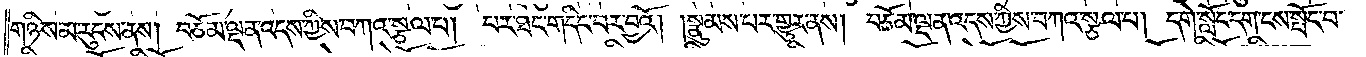གཉིས་མ་རུངས་ནས། བཅོམ་ལྡན་འདས་ཀྱིས་བཀའ་སྩལ་པ། པར་ཐང་གདིང་བར་བྱའོ། །སྣུམས་པར་གྱུར་ནས། བཅོམ་ལྡན་འདས་ཀྱིས་བཀའ་སྩལ་པ། དགེ་སློང་དག་ངས་སྤོང་བ་
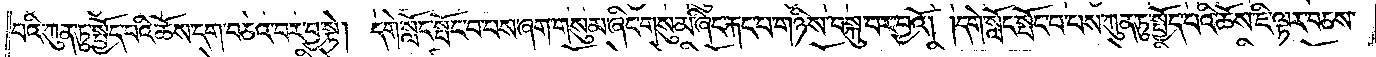པའི་ཀུན་ཏུ་སྤྱོད་པའི་ཆོས་དག་བཅའ་བར་བྱ་སྟེ། དགེ་སློང་སྤོང་བ་པས་ཞག་གསུམ་ཞིང་གསུམ་ཞིང་རྐང་པ་གཉིས་བསྐུ་བར་བྱའོ། །དགེ་སློང་སྤོང་བ་པས་ཀུན་ཏུ་སྤྱོད་པའི་ཆོས་ཇི་ལྟར་བཅས་
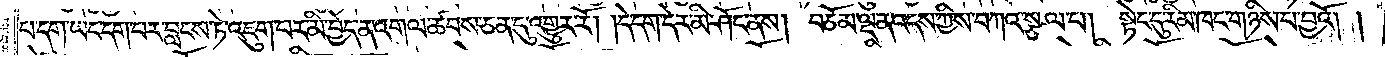པ་དག་ཡང་དག་པར་བླངས་ཏེ་འཇུག་པར་མི་བྱེད་ན་འགལ་ཚབས་ཅན་དུ་འགྱུར་རོ། །དེ་དག་དེར་མི་ཤོང་ནས། བཅོམ་ལྡན་འདས་ཀྱིས་བཀའ་སྩལ་པ། སྟེང་དུ་རིམ་ཁང་གཉིས་པ་བྱའོ༎
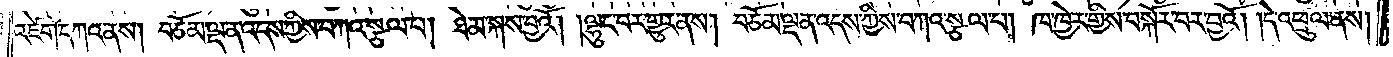འཇེག་དགའ་ནས། བཅོམ་ལྡན་འདས་ཀྱིས་བཀའ་སྩལ་པ། ཐེམ་སྐས་བྱའོ། །ལྷུང་བར་གྱུར་ནས། བཅོམ་ལྡན་འདས་ཀྱིས་བཀའ་སྩལ་པ། ཁ་ཁྱེར་གྱིས་བསྐོར་བར་བྱའོ། །དེ་འཕྲུལ་ནས།
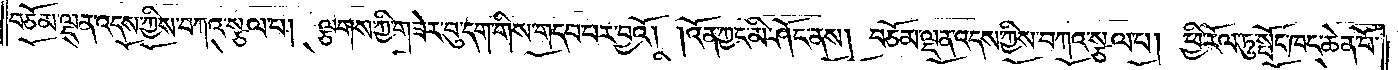བཅོམ་ལྡན་འདས་ཀྱིས་བཀའ་སྩལ་པ། ལྕགས་ཀྱི་གཟེར་བུ་དག་གིས་གདབ་པར་བྱའོ། །འོན་ཀྱང་མི་ཤོང་ནས། བཅོམ་ལྡན་འདས་ཀྱིས་བཀའ་སྩལ་པ། ཕྱི་རོལ་ཏུ་སྤོང་ཁང་ཆེན་པོ་
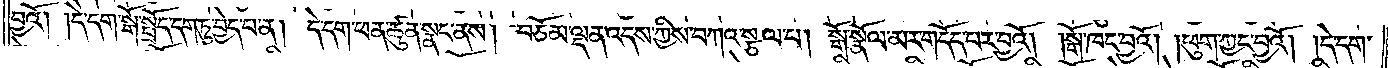བྱའོ། །དེ་དག་སྒོ་སྤྲོད་དག་ཏུ་བྱེད་པ་ན། དེ་དག་ཕན་ཚུན་སྣང་ནས། བཅོམ་ལྡན་འདས་ཀྱིས་བཀའ་སྩལ་པ། སྒོ་སྣོལ་མར་གདོད་པར་བྱའོ། །སྒོ་ཁང་བྱའོ། །ཕུག་ཀྱང་བྱའོ། །དེ་དག་
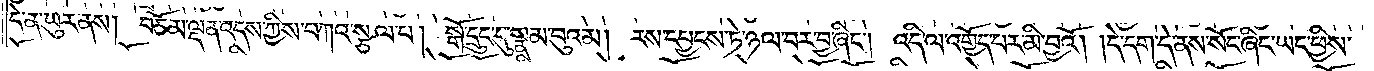དེ་ན་ཡུར་ནས། བཅོམ་ལྡན་འདས་ཀྱིས་བཀའ་སྩལ་པ། སྒོ་དྲུང་དུ་སྣམ་བུའམ། རས་དཔྱངས་ཏེ་ཉལ་བར་བྱ་ཞིང༌། འདི་ལ་འགྱོད་པར་མི་བྱའོ། །དེ་དག་དེ་ནས་སོང་ཞིང་ཡང་ཕྱིས་
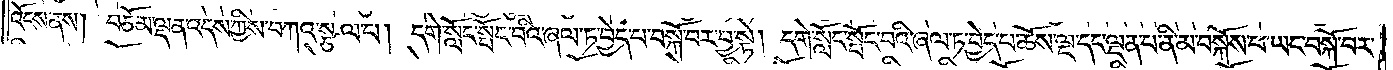འོངས་ནས། བཅོམ་ལྡན་འདས་ཀྱིས་བཀའ་སྩལ་པ། དགེ་སློང་སྤོང་བའི་ཞལ་ཏ་བྱེད་པ་བསྐོ་བར་བྱ་སྟེ། དགེ་སློང་སྤོང་བའི་ཞལ་ཏ་བྱེད་པ་ཆོས་ལྔ་དང་ལྡན་པ་ནི་མ་བསྐོས་པ་ཡང་བསྐོ་བར་
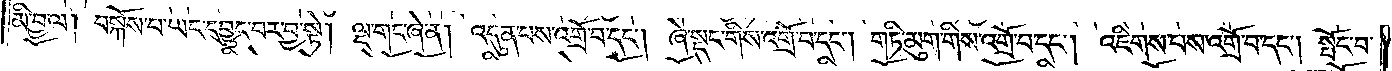མི་བྱ་ལ། བསྐོས་པ་ཡང་དབྱུང་བར་བྱ་སྟེ། ལྔ་གང་ཞེ་ན། འདུན་པས་འགྲོ་བ་དང༌། ཞེ་སྡང་གིས་འགྲོ་བ་དང༌། གཏི་མུག་གིས་འགྲོ་བ་དང༌། འཇིགས་པས་འགྲོ་བ་དང༌། སྤོང་བ་
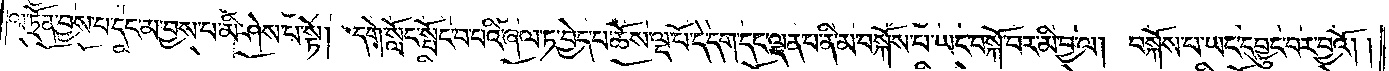ལ་ཏྲོན་བྱས་པ་དང་མ་བྱས་པ་མི་ཤེས་པ་སྟེ། དགེ་སློང་སྤོང་བ་པའི་ཞལ་ཏ་བྱེད་པ་ཆོས་ལྔ་པོ་དེ་དག་དང་ལྡན་པ་ནི་མ་བསྐོས་པ་ཡང་བསྐོ་བར་མི་བྱ་ལ། བསྐོས་པ་ཡང་དབྱུང་བར་བྱའོ། །
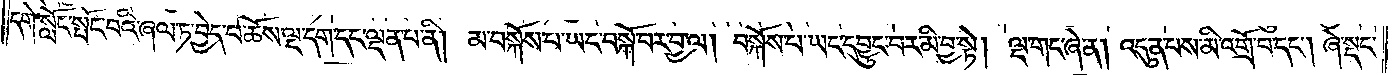དགེ་སློང་སྤོང་བའི་ཞལ་ཏ་བྱེད་པ་ཆོས་ལྔ་དག་དང་ལྡན་པ་ནི། མ་བསྐོས་པ་ཡང་བསྐོ་བར་བྱ་ལ། བསྐོས་པ་ཡང་དབྱུང་བར་མི་བྱ་སྟེ། ལྔ་གང་ཞེ་ན། འདུན་པས་མི་འགྲོ་བ་དང༌། ཞེ་སྡང་
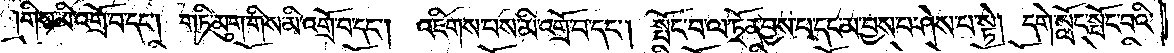།གིས་མི་འགྲོ་བ་དང༌། གཏི་མུག་གིས་མི་འགྲོ་བ་དང༌། འཇིགས་བས་མི་འགྲོ་བ་དང༌། སྤོང་བ་ལ་ཏྲོན་བྱས་པ་དང་མ་བྱས་པ་ཤེས་པ་སྟེ། དགེ་སློང་སྤོང་བའི་
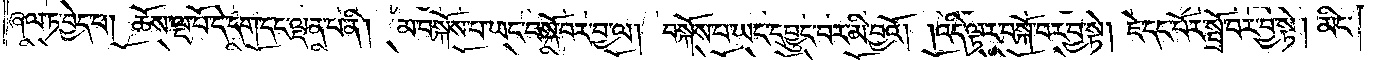ཞལ་ཏ་བྱེད་པ། ཆོས་ལྔ་པོ་དེ་དག་དང་ལྡན་པ་ནི། མ་བསྐོས་པ་ཡང་བསྐོ་བར་བྱ་ལ། བསྐོས་པ་ཡང་དབྱུང་བར་མི་བྱའོ། །འདི་ལྟར་བསྐོ་བར་བྱ་སྟེ། ཇེ་དང་པོར་སྤྲོ་བར་བྱ་སྟེ། མིང་
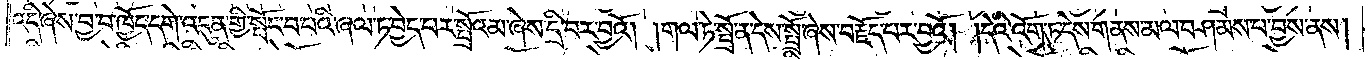འདི་ཞེས་བྱ་བ་ཁྱོད་དགེ་འདུན་གྱི་སྤོང་བ་བའི་ཞལ་ཏ་བྱེད་པར་སྤྲོ་འམ་ཞེས་དྲི་བར་བྱའོ། །གལ་ཏེ་སྤྲོ་ན་དེས་སྤྲོ་ཞེས་བརྗོད་པར་བྱའོ། །དེའི་འོག་ཏུ་དེས་གནས་མལ་བཤམས་པ་བྱས་ནས།
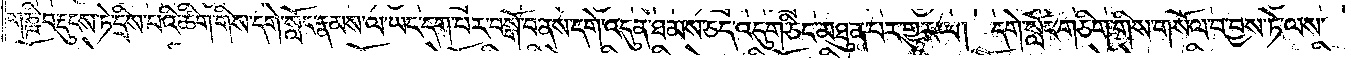གཎྜི་བརྡུངས་ཏེ་དྲིས་པའི་ཚིག་གིས་དགེ་སློང་རྣམས་ལ་ཡང་དག་པར་བསྒོ་བ་ནས་དགེ་འདུན་ཐམས་ཅད་འདུག་ཅིང་མཐུན་པར་གྱུར་ལ། དགེ་སློང་གཅིག་གིས་གསོལ་བ་བྱས་ཏེ་ལས་
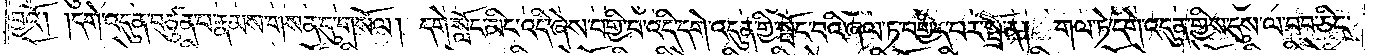བྱའོ། །དགེ་འདུན་བཙུན་པ་རྣམས་གསན་དུ་གསོལ། དགེ་སློང་མིང་འདི་ཞེས་བགྱི་བ་འདི་དགེ་འདུན་གྱི་སྤོང་བའི་ཞལ་ཏ་བགྱིད་པར་སྤྲོ་ན། གལ་ཏེ་དགེ་འདུན་གྱིས་དུས་ལ་བབ་ཅིང་
